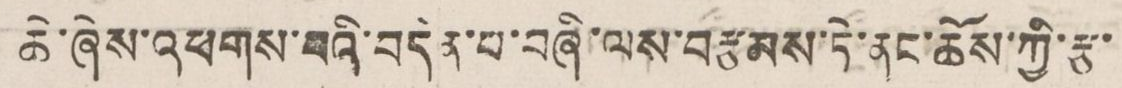ཆེ་ཞེས་འཕགས་པའི་བདེན་པ་བཞི་ལས་བརྩམས་ཏེ་ནང་ཆོས་ཀྱི་རྩ་
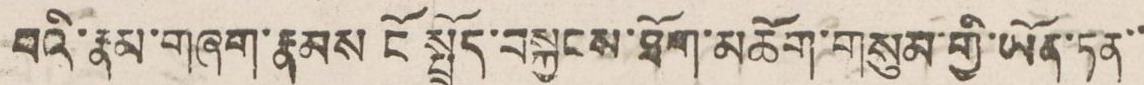པའི་རྣམ་གཞག་རྣམས ངོ སྤྲོད་བསྐྱངས་ཐོག་མཆོག་གསུམ་གྱི་ཡོན་ཏན་
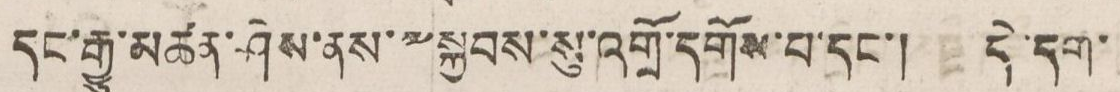དང་རྒྱུ་མཚན་ཤེས་ནས་༸སྐྱབས་སུ་འགྲོ་དགོས་པ་དང་། དེ་དག་
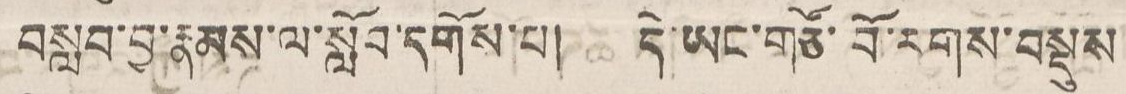བསླབ་བྱ་རྣམས་ལ་སློབ་དགོས་པ། དེ་ཡང་གཙོ་བོ་རགས་བསྡུས་
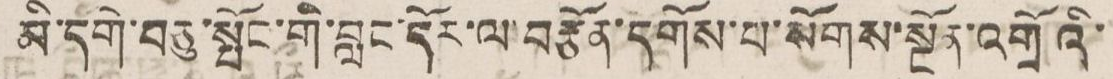མི་དགེ་བཅུ་སྤོང་གི་བླང་དོར་ལ་བརྩོན་དགོས་པ་སོགས་སྔོན་འགྲོའི་
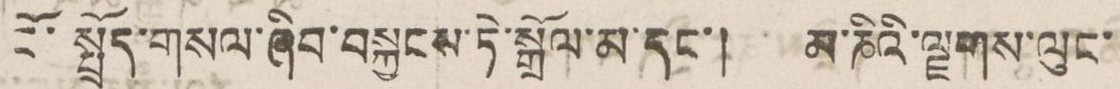ངོ་སྤྲོད་གསལ་ཞིབ་བསྐྱབས་ཏེ་སྒྲོལ་མ་དང་། མ་ཎིའི་ལྗགས་ལུང་
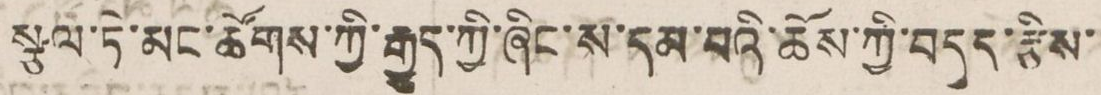སྩལ་ཏེ་མང་ཚོགས་ཀྱི་རྒྱུད་ཀྱི་ཞིང་ས་དམ་པའི་ཆོས་ཀྱི་བདུད་རྩིས་
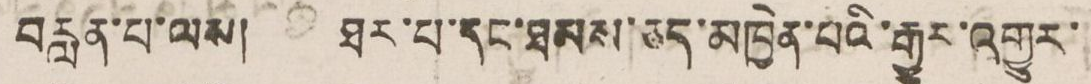བརླན་པ་ལས། ཐར་པ་དང་ཐམས་ཅད་མཁྱེན་པའི་རྒྱུར་འགྱུར་
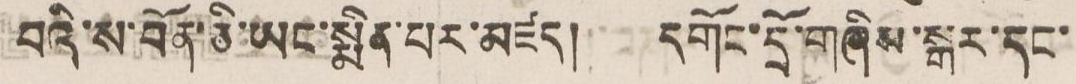བའི་ས་བོན་ཅི་ཡང་སྨོན་པར་མཛད། དགོང་དྲོ་གཞིས་སྒར་དང་
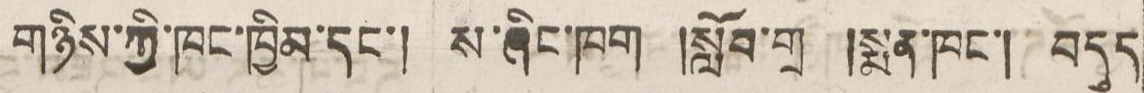གཉིས་ཀྱི་ཁང་ཁྱིམ་དང་། ས་ཞིང་ཁག །སློབ་གྲ །སྨན་ཁང་། བདུད
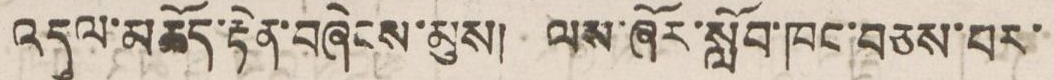འདུལ་མཆོད་རྟེན་བཞེངས་མུས། ལས་ཞོར་སློབ་ཁང་བཅས་བར་
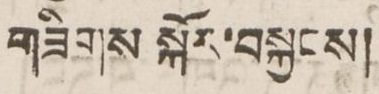གཟིགས སྐོར་བསྐྱངས།
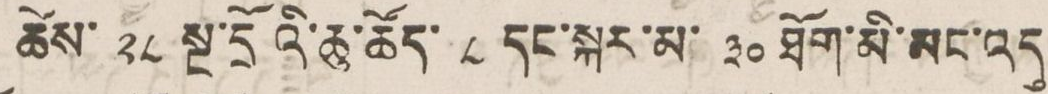ཚེས་ ༢༨ སྔ་དྲོའི་ཆུ་ཚོད་ ༨ དང་སྐར་མ་ ༣༠ ཐོག་མི་མང་འདུ
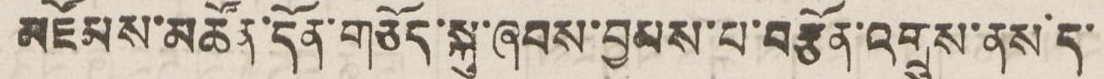འཛོམས་མཚོན་དོན་གཅོད་སྐུ་ཞབས་བྱམས་པ་བཙོན་འགྲུས་ནས་ད་
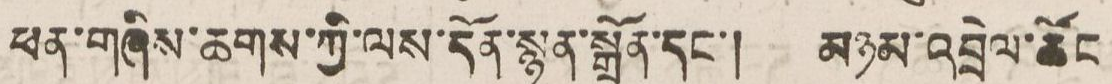ཕན་གཞིས་ཆགས་ཀྱི་ལས་དོན་སྙན་སྒྲོན་དང་། མཉམ་འབྲེལ་ཚོང
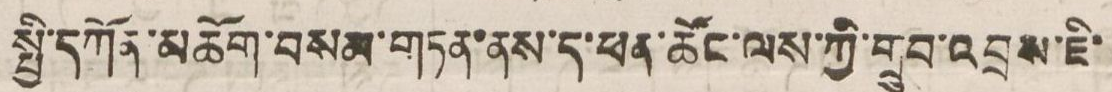སྤྱི་དཀོན་མཆོག་བསམ་གཏན་ནས་ད་ཕན་ཚོང་ལས་ཀྱི་གྲུབ་འབྲས་ཇི་
